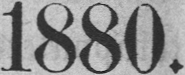1880.
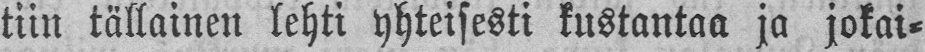tiin tällainen lehti yhteisesti kustantaa ja jokai-
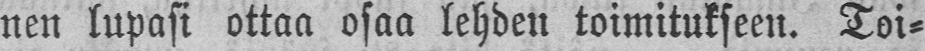nen lupasi ottaa osaa lehden toimitukseen. Toi-
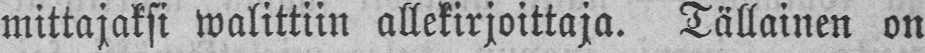mittajaksi walittiin allekirjoittaja. Tällainen on
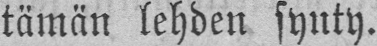tämän lehden synty.
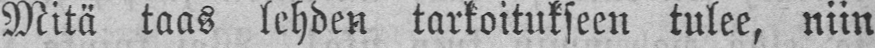Mitä taas lehden tarkoitukseen tulee, niin
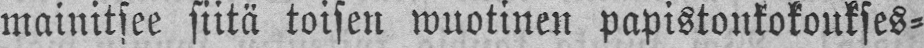mainitsee siitä toisen wuotinen papistonkokoukses-
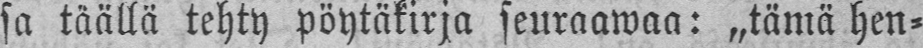sa täällä tehty pöytäkirja seuraawaa: „tämä hen-
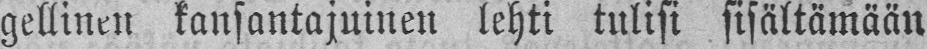gellinen kansantajuinen lehti tulisi sisältämään
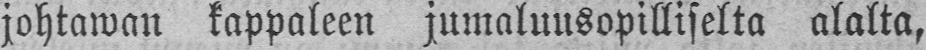johtawan kappaleen jumaluusopilliselta alalta,
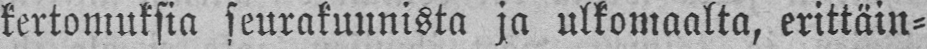kertomuksia seurakunnista ja ulkomaalta, erittäin-
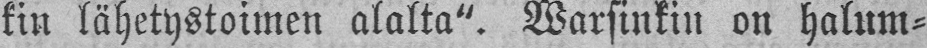kin lähetystoimen alalta". Warsinkin on halum-
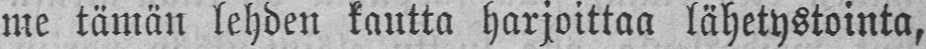me tämän lehden kautta harjoittaa lähetystointa,
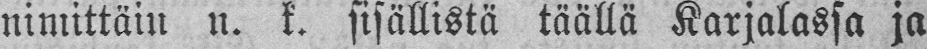nimittäin n. k. sisällistä täällä Karjalassa ja
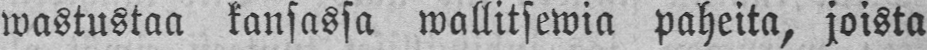wastustaa kansassa wallitsewia paheita, joista
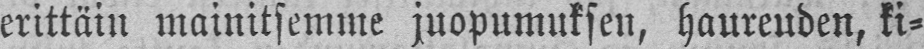erittäin mainitsemme juopumuksen, haureuden, ki-
